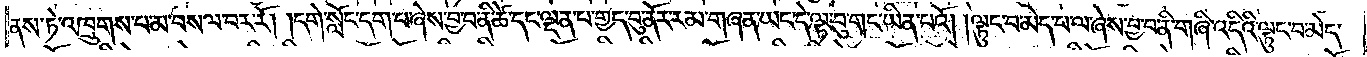ནས་ཏེ་འཁྲུགས་པ་མ་བསལ་བར་རོ། །དགེ་སློང་དག་པ་ཞེས་བྱ་བ་ནི་ཚེ་དང་ལྡན་པ་གྱད་བུ་ནོར་རམ་གཞན་ཡང་དེ་ལྟ་བུ་གང་ཡིན་པའོ། །ལྟུང་བ་མེད་པ་ལ་ཞེས་བྱ་བ་ནི་གཞི་འདིའི་ལྟུང་བ་མེད་
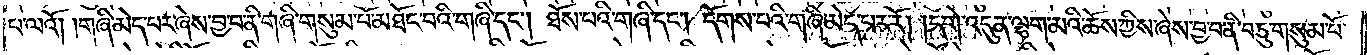པ་ལའོ། །གཞི་མེད་པར་ཞེས་བྱ་བ་ནི་གཞི་གསུམ་པོ་མཐོང་བའི་གཞི་དང༌། ཐོས་པའི་གཞི་དང༌། དོགས་པའི་གཞི་མེད་པར་རོ། །དགེ་འདུན་ལྷག་མའི་ཆོས་ཀྱིས་ཞེས་བྱ་བ་ནི་བཅུ་གསུམ་པོ་
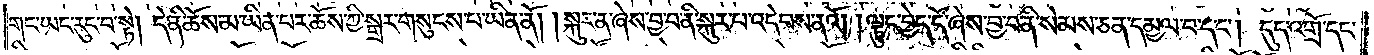གང་ཡང་རུང་བ་སྟེ། དེ་ནི་ཆོས་མ་ཡིན་པར་ཆོས་ཀྱི་སྒྲར་གསུངས་པ་ཡིན་ནོ། །སྐུར་ན་ཞེས་བྱ་བ་ནི་སྐུར་བ་འདེབས་ནའོ། །ལྟུང་བྱེད་དོ་ཞེས་བྱ་བ་ནི་སེམས་ཅན་དམྱལ་བ་དང༌། དུད་འགྲོ་དང་
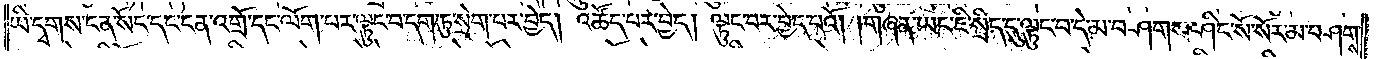ཡི་དྭགས་ངན་སོང་དང་ངན་འགྲོ་དང་ལོག་པར་ལྟུང་བ་དག་ཏུ་སྲེག་པར་བྱེད། འཚོད་པར་བྱེད། ལྟུང་བར་བྱེད་པའོ། །གཞན་ཡང་ཇི་སྲིད་དུ་ལྟུང་བ་དེ་མ་བཤགས་ཤིང་སོ་སོར་མ་བཤགས་
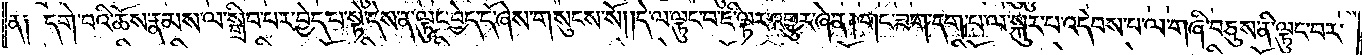ན། དགེ་བའི་ཆོས་རྣམས་ལ་སྒྲིབ་པར་བྱེད་པ་སྟེ་དེས་ན་ལྟུང་བྱེད་དོ་ཞེས་གསུངས་སོ། །དེ་ལ་ལྟུང་བ་ཇི་ལྟར་འགྱུར་ཞེ་ན། གང་ཟག་དག་པ་ལ་སྐུར་བ་འདེབས་པ་ལ་གཞི་བཅུས་ནི་ལྟུང་བར་
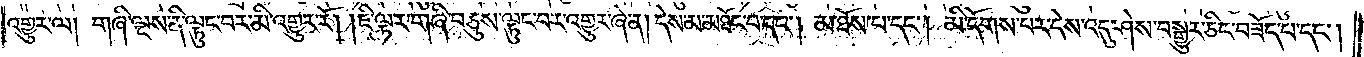འགྱུར་ལ། གཞི་ལྔས་ནི་ལྟུང་བར་མི་འགྱུར་རོ། །ཇི་ལྟར་གཞི་བཅུས་ལྟུང་བར་འགྱུར་ཞེ་ན། དེས་མ་མཐོང་བ་དང༌། མ་ཐོས་པ་དང༌། མི་དོགས་པར་དེས་འདུ་ཤེས་བསྒྱུར་ཅིང་བཟོད་པ་དང༌།
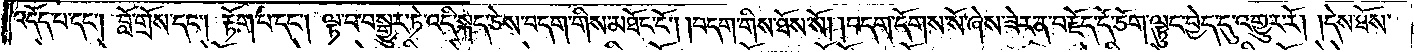འདོད་པ་དང༌། བློ་གྲོས་དང༌། རྟོག་པ་དང༌། ལྟ་བ་བསྒྱུར་ཏེ་འདི་སྐད་ཅེས་བདག་གིས་མཐོང་ངོ༌། །བདག་གིས་ཐོས་སོ། །བདག་དོགས་སོ་ཞེས་ཟེར་ན་བརྗོད་དོ་ཅོག་ལྟུང་བྱེད་དུ་འགྱུར་རོ། །དེས་ཐོས་
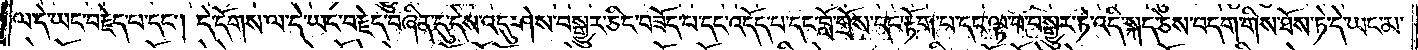ལ་དེ་ཡང་བརྗེད་པ་དང༌། དེ་དོགས་ལ་དེ་ཡང་བརྗེད་བཞིན་དུ་དེས་འདུ་ཤེས་བསྒྱུར་ཅིང་བཟོད་པ་དང་འདོད་པ་དང་བློ་གྲོས་དང་རྟོག་པ་དང་ལྟ་བ་བསྒྱུར་ཏེ་འདི་སྐད་ཅེས་བདག་གིས་ཐོས་ཏེ་དེ་ཡང་མ་
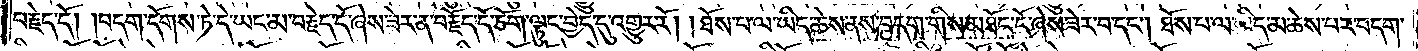བརྗེད་དོ། །བདག་དོགས་ཏེ་དེ་ཡང་མ་བརྗེད་དོ་ཞེས་ཟེར་ན་བརྗོད་དོ་ཅོག་ལྟུང་བྱེད་དུ་འགྱུར་རོ། །ཐོས་པ་ལ་ཡིད་ཆེས་ནས་བདག་གིས་མཐོང་ངོ་ཞེས་ཟེར་བ་དང༌། ཐོས་པ་ལ་ཡིད་མ་ཆེས་པར་བདག་
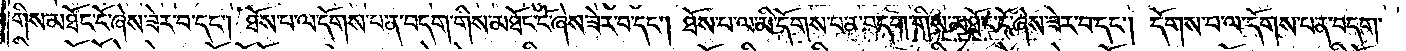གིས་མཐོང་ངོ་ཞེས་ཟེར་བ་དང༌། ཐོས་པ་ལ་དོགས་པ་ན་བདག་གིས་མཐོང་ངོ་ཞེས་ཟེར་བ་དང༌། ཐོས་པ་ལ་མི་དོགས་པ་ན་བདག་གིས་མཐོང་ངོ་ཞེས་ཟེར་བ་དང༌། དོགས་པ་ལ་དོགས་པ་ན་བདག་
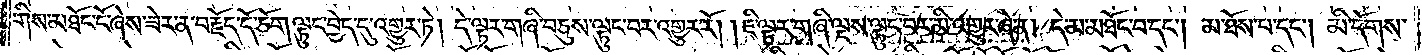གིས་མཐོང་ངོ་ཞེས་ཟེར་ན་བརྗོད་དོ་ཅོག་ལྟུང་བྱེད་དུ་འགྱུར་ཏེ། དེ་ལྟར་གཞི་བཅུས་ལྟུང་བར་འགྱུར་རོ། །ཇི་ལྟར་གཞི་ལྔས་ལྟུང་བར་མི་འགྱུར་ཞེ་ན། དེ་མ་མཐོང་བ་དང༌། མ་ཐོས་པ་དང༌། མི་དོགས་
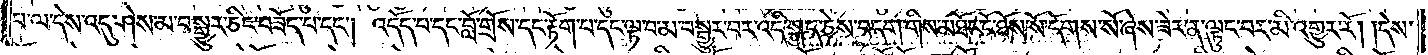པ་ལ་དེས་འདུ་ཤེས་མ་བསྒྱུར་ཅིང་བཟོད་པ་དང༌། འདོད་པ་དང་བློ་གྲོས་དང་རྟོག་པ་དང་ལྟ་བ་མ་བསྒྱུར་བར་འདི་སྐད་ཅེས་བདག་གིས་མཐོང་ངོ་ཐོས་སོ་དོགས་སོ་ཞེས་ཟེར་ན་ལྟུང་བར་མི་འགྱུར་རོ། །དེས་
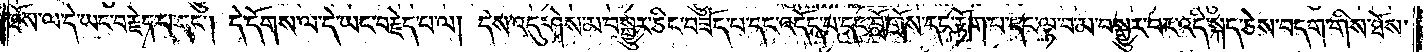ཐོས་ལ་དེ་ཡང་བརྗེད་པ་དང༌། དེ་དོགས་ལ་དེ་ཡང་བརྗེད་པ་ལ། དེས་འདུ་ཤེས་མ་བསྒྱུར་ཅིང་བཟོད་པ་དང་འདོད་པ་དང་བློ་གྲོས་དང་རྟོག་པ་ལྟ་བ་མ་བསྒྱུར་བར་འདི་སྐད་ཅེས་བདག་གིས་ཐོས་
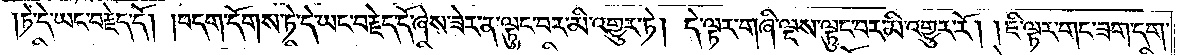ཏེ་དེ་ཡང་བརྗེད་དོ། །བདག་དོགས་ཏེ་དེ་ཡང་བརྗེད་དོ་ཞེས་ཟེར་ན་ལྟུང་བར་མི་འགྱུར་ཏེ། དེ་ལྟར་གཞི་ལྔས་ལྟུང་བར་མི་འགྱུར་རོ། །ཇི་ལྟར་གང་ཟག་དག་
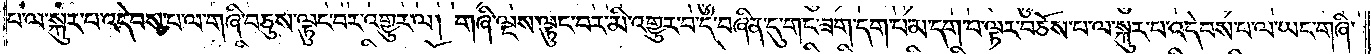པ་ལ་སྐུར་པ་འདེབས་པ་ལ་གཞི་བཅུས་ལྟུང་བར་འགྱུར་ལ། གཞི་ལྔས་ལྟུང་བར་མི་འགྱུར་བ་དེ་བཞིན་དུ་གང་ཟག་དག་པ་མ་དག་པ་ལྟར་བཅོས་པ་ལ་སྐུར་པ་འདེབས་པ་ལ་ཡང་གཞི་
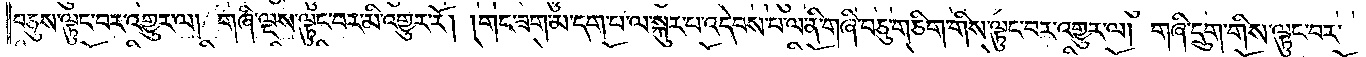བཅུས་ལྟུང་བར་འགྱུར་ལ། གཞི་ལྔས་ལྟུང་བར་མི་འགྱུར་རོ། །གང་ཟག་མ་དག་པ་ལ་སྐུར་པ་འདེབས་པ་ལ་ནི་གཞི་བཅུ་གཅིག་གིས་ལྟུང་བར་འགྱུར་ལ། གཞི་དྲུག་གིས་ལྟུང་བར་
